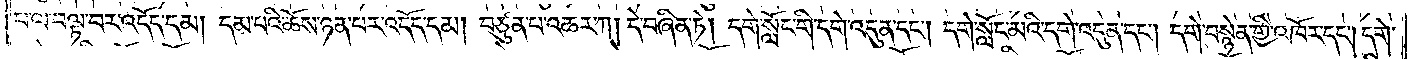པ་ལ་བལྟ་བར་འདོད་དམ། དམ་པའི་ཆོས་ཉན་པར་འདོད་དམ། བཙུན་པ་འཆར་ཀ། དེ་བཞིན་ཏེ། དགེ་སློང་གི་དགེ་འདུན་དང༌། དགེ་སློང་མའི་དགེ་འདུན་དང༌། དགེ་བསྙེན་གྱི་འཁོར་དང༌། དགེ་
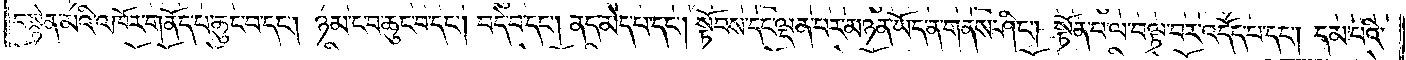བསྙེན་མའི་འཁོར་གནོད་པ་ཆུང་བ་དང༌། ཉམ་ང་བ་ཆུང་བ་དང༌། བདེ་བ་དང༌། ནད་མེད་པ་དང༌། སྟོབས་དང་ལྡན་པར་མཉན་ཡོད་ན་གནས་ཤིང༌། སྟོན་པ་ལ་བལྟ་བར་འདོད་པ་དང༌། དམ་པའི་
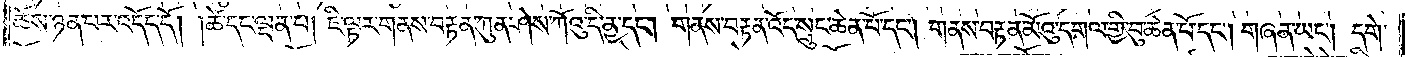ཆོས་ཉན་པར་འདོད་དོ། །ཚེ་དང་ལྡན་པ། ཇི་ལྟར་གནས་བརྟན་ཀུན་ཤེས་ཀོའུ་དི་ནྱ་དང༌། གནས་བརྟན་འོད་སྲུང་ཆེན་པོ་དང༌། གནས་བརྟན་མོའུ་དགལ་གྱི་བུ་ཆེན་པོ་དང༌། གཞན་ཡང༌། དགེ་
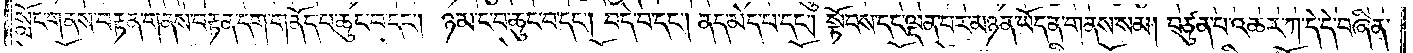སློང་གནས་བརྟན་གནས་བརྟན་དག་གནོད་པ་ཆུང་བ་དང༌། ཉམ་ང་བ་ཆུང་བ་དང༌། བདེ་བ་དང༌། ནད་མེད་པ་དང༌། སྟོབས་དང་ལྡན་པར་མཉན་ཡོད་ན་གནས་སམ། བཙུན་པ་འཆར་ཀ་དེ་དེ་བཞིན་
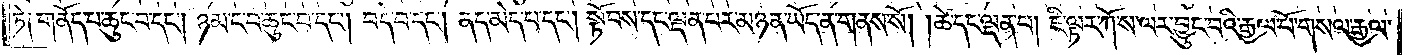ཏེ། གནོད་པ་ཆུང་བ་དང༌། ཉམ་ང་བ་ཆུང་བ་དང༌། བདེ་བ་དང༌། ནད་མེད་པ་དང༌། སྟོབས་དང་ལྡན་པར་མཉན་ཡོད་ན་གནས་སོ། །ཚེ་དང་ལྡན་པ། ཇི་ལྟར་ཀོ་ས་ལར་བྱུང་བའི་རྒྱལ་པོ་གསལ་རྒྱལ་
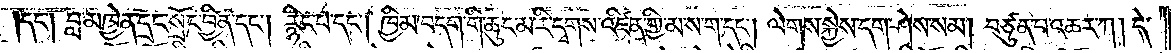དང༌། བླ་མཁྱེན་དྲང་སྲོང་བྱིན་དང༌། རྙིང་པ་དང༌། ཁྱིམ་བདག་གི་ཆུང་མ་རི་དྭགས་འཛིན་གྱི་མ་ས་ག་དང༌། ལེགས་སྐྱེས་དག་ཤེས་སམ། བཙུན་པ་འཆར་ཀ། དེ་
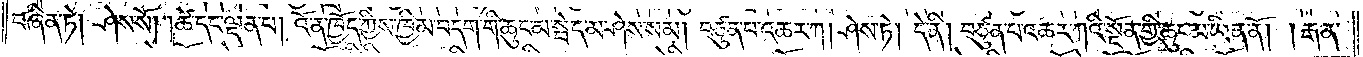བཞིན་ཏེ། ཤེས་སོ། །ཚེ་དང་ལྡན་པ། འོ་ན་ཁྱོད་ཀྱིས་ཁྱིམ་བདག་གི་ཆུང་མ་སྦེད་མ་ཤེས་སམ། བཙུན་པ་འཆར་ཀ། ཤེས་ཏེ། དེ་ནི། བཙུན་པ་འཆར་ཀའི་སྔོན་གྱི་ཆུང་མ་ཡིན་ནོ། །རྒན་
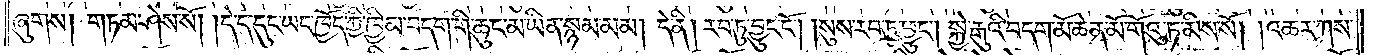ཞུགས། གཏམ་ཤེས་སོ། །དེ་ད་དུང་ཡང་ཁྱོད་ཀྱི་ཁྱིམ་བདག་གི་ཆུང་མ་ཡིན་སྙམ་མམ། དེ་ནི། རབ་ཏུ་བྱུང་ངོ༌། །སུས་རབ་ཏུ་ཕྱུང༌། སྐྱེ་རྒུའི་བདག་མོ་ཆེན་མོ་གོའུ་ཏ་མིས་སོ། །འཆར་ཀས་
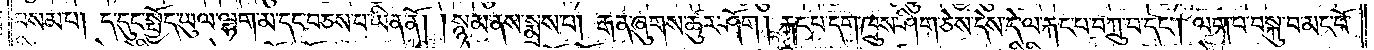བསམ་པ། ད་དུང་སྤྱོད་ཡུལ་ལྷག་མ་དང་བཅས་པ་ཡིན་ནོ། །སྙམ་ནས་སྨྲས་པ། རྒན་ཞུགས་ཚུར་ཤོག །རྐང་པ་དག་ཁྲུས་ཤིག་ཅེས་དེས་དེ་ལ་རྐང་པ་བཀྲུ་བ་དང༌། ལག་པ་བསྐུ་བ་མང་པོ་
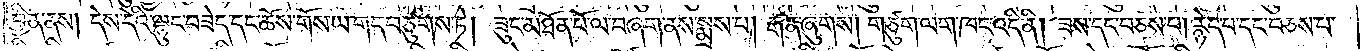བྱིན་ནས། དེས་དེའི་ལྷུང་བཟེད་དང་ཆོས་གོས་ཡ་གད་བཙུགས་ཏེ། ཟུང་མཐོན་པོ་ལ་བཞག་ནས་སྨྲས་པ། རྒན་ཞུགས། གཙུག་ལག་ཁང་འདི་ནི། ཟས་དང་བཅས་པ། རྙེད་པ་དང་བཅས་པ་
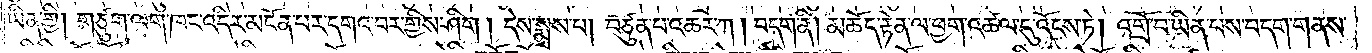ཡིན་གྱི། གཙུག་ལག་ཁང་འདིར་མངོན་པར་དགའ་བར་གྱིས་ཤིག །དེས་སྨྲས་པ། བཙུན་པ་འཆར་ཀ། བདག་ནི། མཆོད་རྟེན་ལ་ཕྱག་འཚལ་དུ་འོངས་ཏེ། འགྲོ་བ་ཡིན་པས་བདག་གནས་
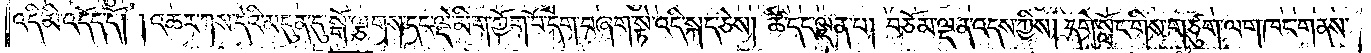འདི་མི་འདོད་དོ། །འཆར་ཀས་དེའི་མདུན་དུ་སྒོ་ལྕགས་དང་ལྡེ་མིག་ཀྱོག་པོ་དག་བཞག་སྟེ་འདི་སྐད་ཅེས། ཚེ་དང་ལྡན་པ། བཅོམ་ལྡན་འདས་ཀྱིས། དགེ་སློང་གིས་གཙུག་ལག་ཁང་གནས་
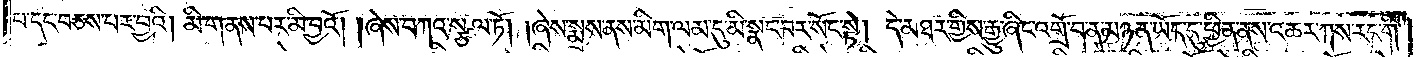པ་དང་བཅས་པར་བྱའི། །མི་གནས་པར་མི་བྱའོ། །ཞེས་བཀའ་སྩལ་ཏོ། །ཞེས་སྨྲས་ནས་མིག་ལམ་དུ་མི་སྣང་བར་སོང་སྟེ། དེ་མཐར་གྱིས་རྒྱུ་ཞིང་འགྲོ་བ་ན་མཉན་ཡོད་དུ་ཕྱིན་ནས་འཆར་ཀས་རང་གི་
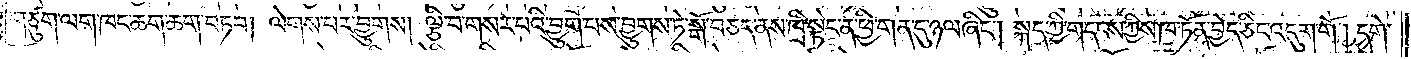གཙུག་ལག་ཁང་ཆག་ཆག་བཏབ། ལེགས་པར་བྱུགས། ལྕི་བ་གསར་པའི་བྱུག་པས་བྱུགས་ཏེ་སྒོ་བཅད་ནས་ཁྲི་སྟེང་ན་ཕྱི་གན་དུ་ཉལ་ཞིང༌། སྐད་ཀྱི་གདངས་ཀྱིས་ཁ་ཏོན་བྱེད་ཅིང་འདུག་གོ། །དགེ་
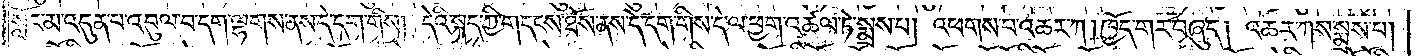སློང་མ་འདུན་པ་འབུལ་བ་དག་ལྷགས་ནས་དེ་དག་གིས། དེའི་སྐད་ཀྱི་གདངས་ཐོས་ནས་དེ་དག་གིས་དེ་ལ་ཕྱག་འཚལ་ཏེ་སྨྲས་པ། འཕགས་པ་འཆར་ཀ། ཁྱོད་གར་བཞུད། འཆར་ཀས་སྨྲས་པ།
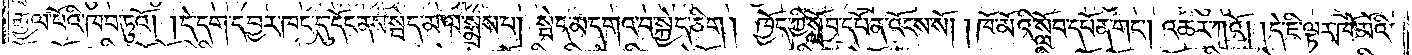རྒྱལ་པོའི་ཁབ་ཏུའོ། །དེ་དག་དབྱར་ཁང་དུ་དོང་ནས་སྦེད་མ་ལ་སྨྲས་པ། སྦེད་མ་དགའ་བ་སྐྱེད་ཅིག །ཁྱོད་ཀྱི་སློབ་དཔོན་འོངས་སོ། །ཁོ་མོའི་སློབ་དཔོན་གང༌། འཆར་ཀའོ། །དེ་ཇི་ལྟར་ཁོ་མོའི་
